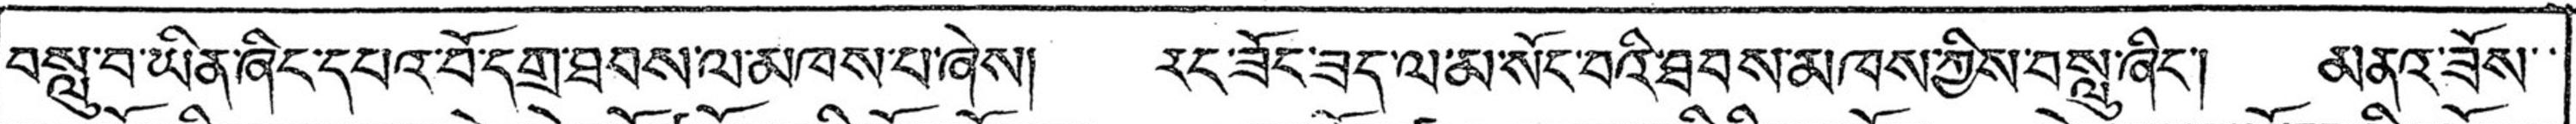བསླུ་བ་ཡིན་ཞིང་དཔའ་བོ་དགྲ་ཐབས་ལ་མཁས་པ་ཞེས། རང་ཟོང་ཟད་ལ་མ་སོང་པའི་ཐབས་མཁས་ཀྱིས་བསླུ་ཞིང་། མནའ་ཟོས་་
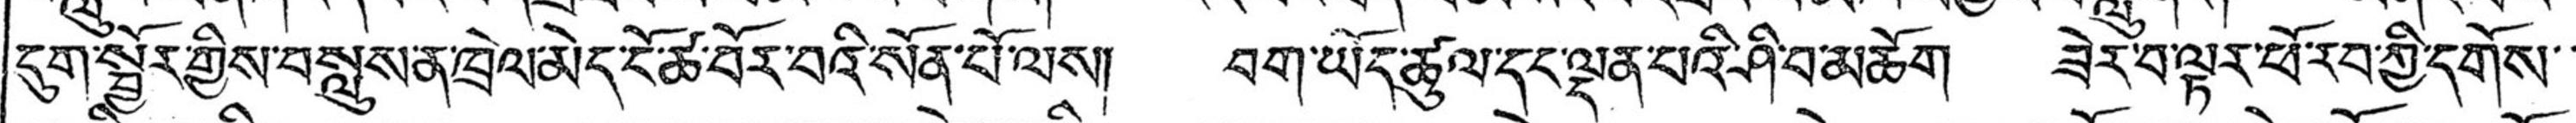དུག་སྦྱོར་གྱིས་བསླུས་ན་ཁྲེལ་མེད་ངོ་ཚ་བོར་བའི་སོན་པོ་ལས། བག་ཡོད་ཚུལ་དང་ལྡན་པའི་ཤི་བ་མཆོག ཟེར་བ་ལྟར་ཕོ་རབ་ཀྱི་དགོས་་
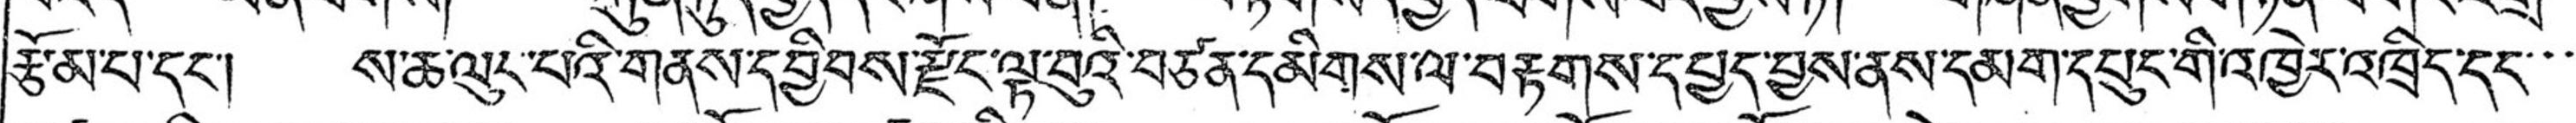རྩོམ་པ་དང་། ས་ཆ་ལུང་པའི་གནས་དབྱིབས་རྫོང་ལྟ་བུའི་བཙན་དམིགས་ལ་བརྟགས་དཔྱད་བྱས་ནས་དམག་དཔུང་གི་འཁྱེར་འཁྲིད་དང་་་་
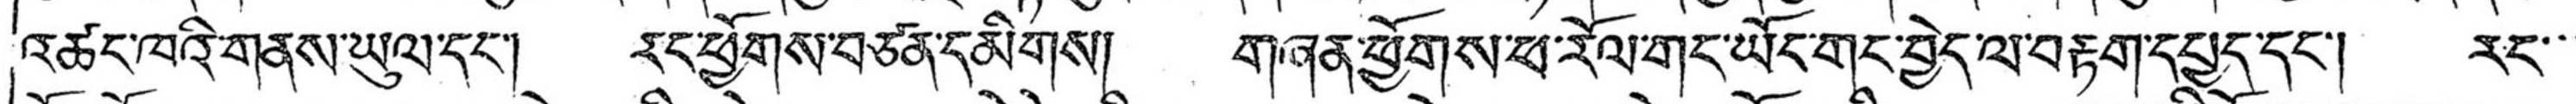འཚང་ཁའི་གནས་ཡུལ་དང་། རང་ཕྱོགས་བཙན་དམིགས། གཞན་ཕྱོགས་ཕ་རོལ་གང་ཡོང་གང་བྱེད་ལ་བརྟག་དཔྱད་དང་། རང་་་
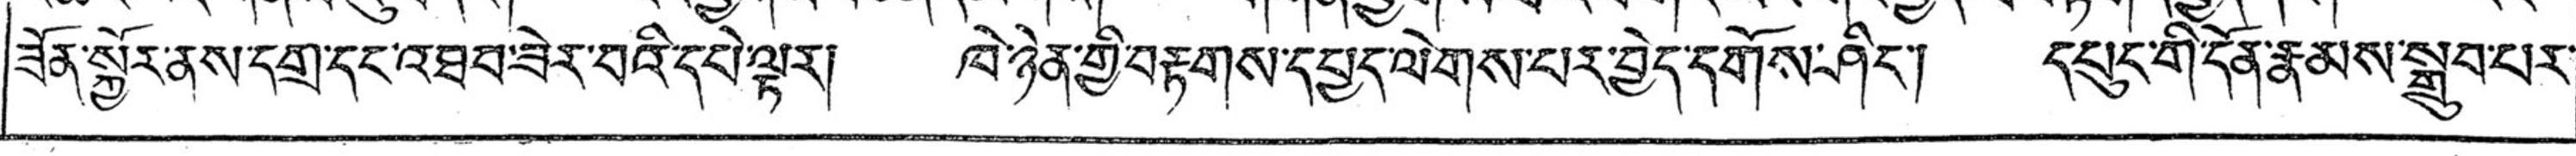ཟོན་སྐྱོར་ནས་དགྲ་དང་འཐབ་ཟེར་བའི་དཔེ་ལྟར། ཁེ་ཉེན་གྱི་བརྟགས་དཔྱད་ལེགས་པར་བྱེད་དགོས་ཤིང་། དཔུང་གི་དོན་རྣམས་སྒྲུབ་པར་
